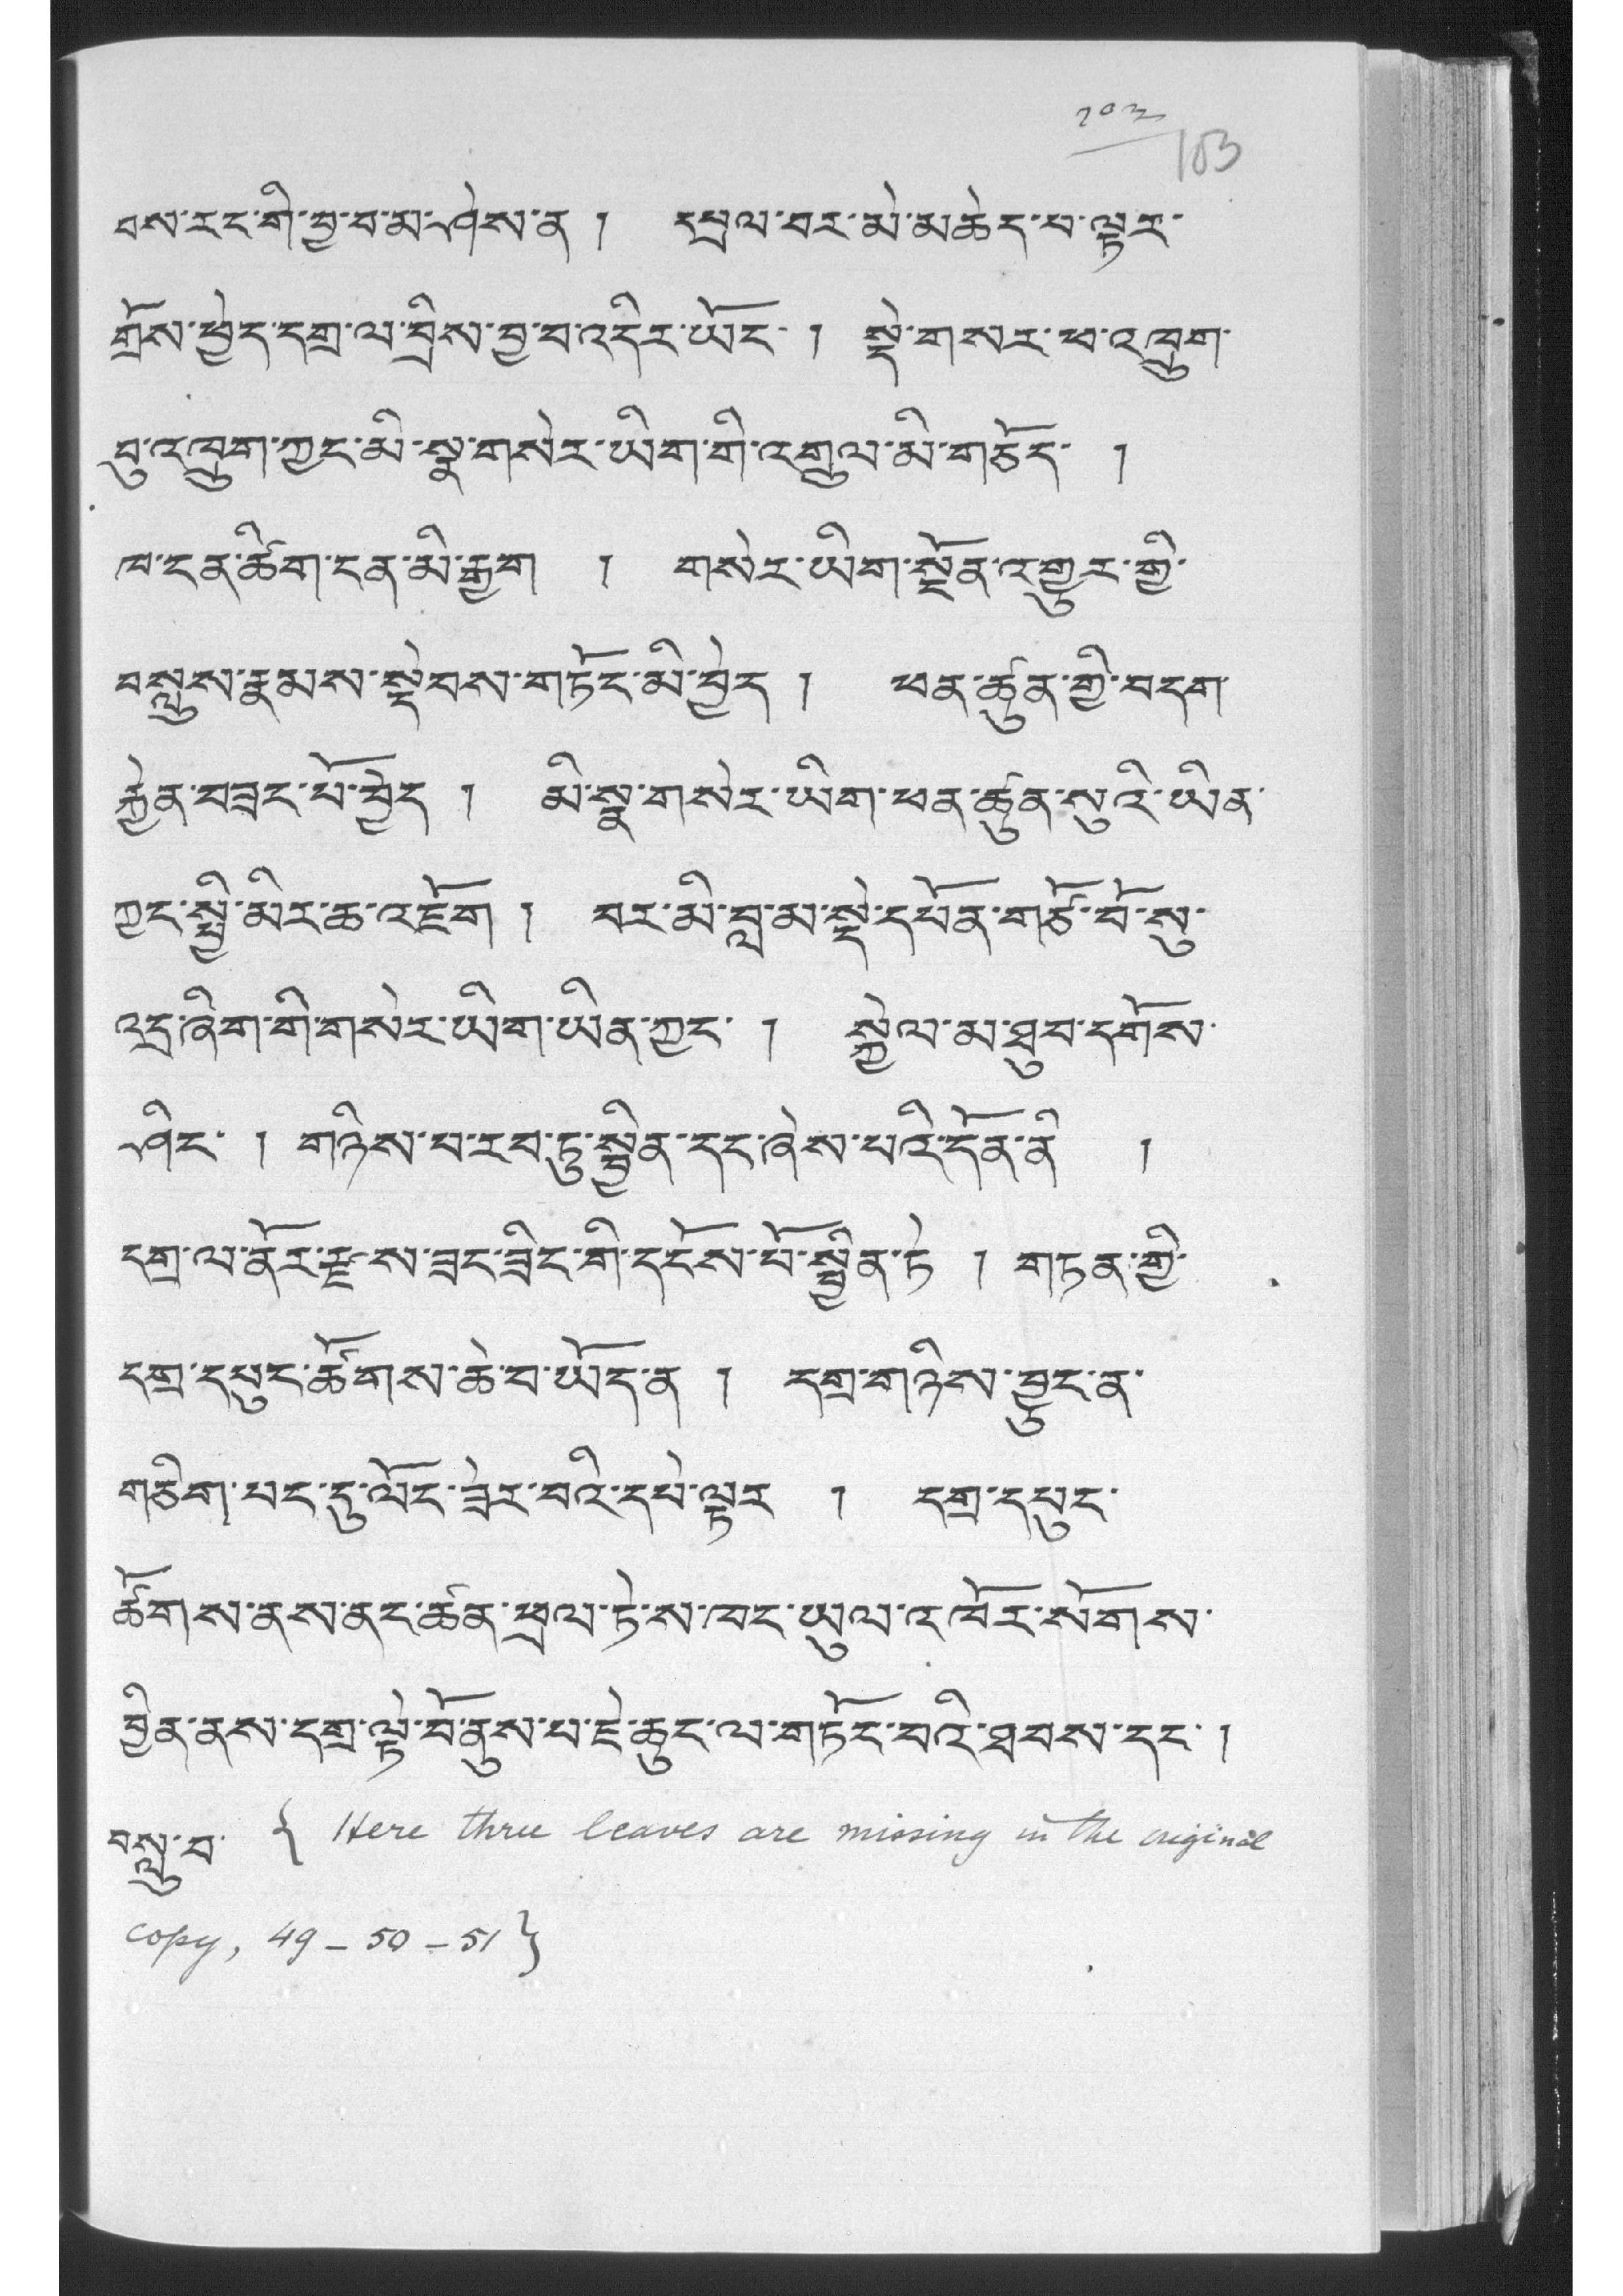༡༠༣
བས་རང་གི་བྱ་བ་མ་ཤེས་ན། དཔྲལ་བར་མི་མཆེད་པ་ལྟར་
གྲོས་ཕྱེད་དགྲ་ལ་བྲིས་བྱ་བ་འདིར་ཡོང་། སྡེ་གསར་ཕ་འཁྲུག་
བུ་འཁྲུག་ཀྱང་མི་སྣ་གསེར་ཡིག་གི་འགྲུལ་མི་གཅོད་ །
ཁ་ངན་ཚིག་ངན་མི་རྒྱག ། གསེར་ཡིག་སྔོན་འགྱུར་གྱི་
བསླུས་རྣམས་སྡེབས་གཏོང་མི་བྱེད ། ཕན་ཚུན་གྱི་བདག་
རྐྱེན་བཟང་པོ་བྱེད ། མི་སྣ་གསེར་ཡིག་ཕན་ཚུན་སུའི་ཡིན་
ཀྱད་སྤྱི་མིར་ཆ་འཇོག ། བར་མི་བླ་མ་སྡེ་དཔོན་གཙོ་བོ་སུ་
འདྲ་ཞིག་གི་གསེར་ཡིག་ཡིན་ཀྱང་ ། སྐྱེལ་མ་ཐུབ་དགོས་
ཤིང་ ། གཉིས་པ་རབ་ཏུ་སྦྱིན་དང་ཞེས་པའི་དོན་ནི །
དགྲ་ལ་ནོར་རྫས་ཟང་ཟིང་གི་དངོས་པོ་སྦྱིན་ཏེ ། གཏན་གྱི་
དགྲ་དཔུང་ཚོགས་ཆེ་བ་ཡོད་ན ། དགྲ་གཉིས་བྱུང་ན་
གཅིག་པང་དུ་ལོང་ཟེར་བའི་དཔེ་ལྟར ། དགྲ་དཔུང་
ཚོགས་ནས་ནང་ཚན་ཕྲལ་ཏེ་ས་ཁང་ཡུལ་འཁོར་སོགས་
བྱིན་ནས་དགྲ་ལྟེ་བོ་ནུས་པ་ཇེ་ཆུང་ལ་གཏོང་བའི་ཐབས་དང་ །
བསླུ་བ་
{ Here three leaves are missing in the original
copy, 49–50–51}
